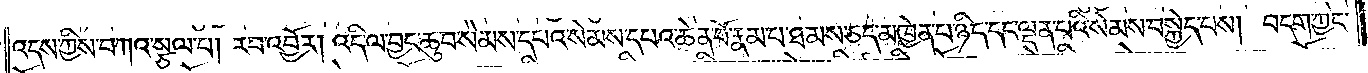འདས་ཀྱིས་བཀའ་སྩལ་པ། རབ་འབྱོར། འདི་ལ་བྱང་ཆུབ་སེམས་དཔའ་སེམས་དཔའ་ཆེན་པོ་རྣམ་པ་ཐམས་ཅད་མཁྱེན་པ་ཉིད་དང་ལྡན་པའི་སེམས་བསྐྱེད་པས། བདག་ཀྱང་
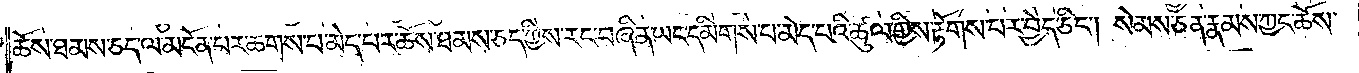ཆོས་ཐམས་ཅད་ལ་མངོན་པར་ཆགས་པ་མེད་པར་ཆོས་ཐམས་ཅད་ཀྱི་རང་བཞིན་ཡང་དམིགས་པ་མེད་པའི་ཚུལ་གྱིས་རྟོགས་པར་བྱེད་ཅིང༌། སེམས་ཅན་རྣམས་ཀྱང་ཆོས་
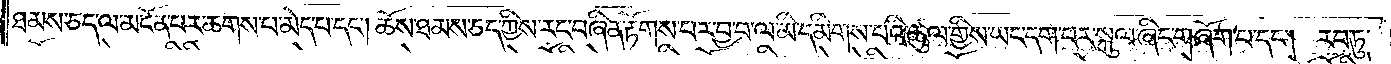ཐམས་ཅད་ལ་མངོན་པར་ཆགས་པ་མེད་པ་དང༌། ཆོས་ཐམས་ཅད་ཀྱིས་རང་བཞིན་རྟོགས་པར་བྱ་བ་ལ་མི་དམིགས་པའི་ཚུལ་གྱིས་ཡང་དག་པར་སྐུལ་ཞིང་གཞོག་པ་དང༌། རབ་ཏུ་
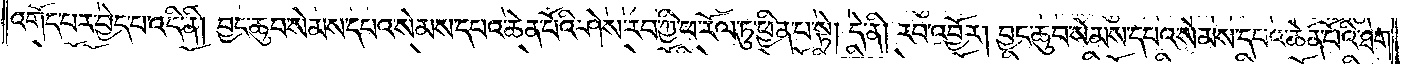འགོད་པར་བྱེད་པ་འདི་ནི། བྱང་ཆུབ་སེམས་དཔའ་སེམས་དཔའ་ཆེན་པོའི་ཤེས་རབ་ཀྱི་ཕ་རོལ་ཏུ་ཕྱིན་པ་སྟེ། དེ་ནི། རབ་འབྱོར། བྱང་ཆུབ་སེམས་དཔའ་སེམས་དཔའ་ཆེན་པོའི་ཐེག་
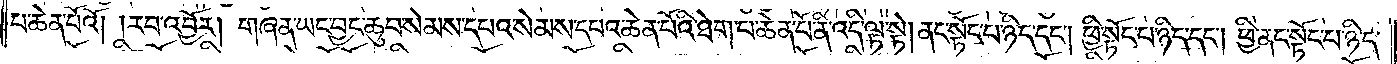པ་ཆེན་པོའོ། །རབ་འབྱོར། གཞན་ཡང་བྱང་ཆུབ་སེམས་དཔའ་སེམས་དཔའ་ཆེན་པོའི་ཐེག་པ་ཆེན་པོ་ནི་འདི་ལྟ་སྟེ། ནང་སྟོང་པ་ཉིད་དང༌། ཕྱི་སྟོང་པ་ཉིད་དང༌། ཕྱི་ནང་སྟོང་པ་ཉིད་
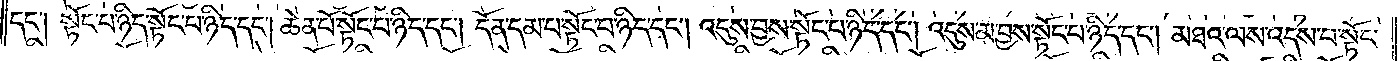དང༌། སྟོང་པ་ཉིད་སྟོང་པ་ཉིད་དང༌། ཆེན་པོ་སྟོང་པ་ཉིད་དང༌། དོན་དམ་པ་སྟོང་པ་ཉིད་དང༌། འདུས་བྱས་སྟོང་པ་ཉིད་དང༌། འདུས་མ་བྱས་སྟོང་པ་ཉིད་དང༌། མཐའ་ལས་འདས་པ་སྟོང་
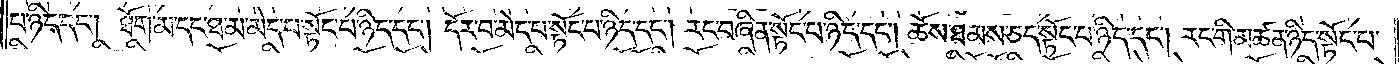པ་ཉིད་དང༌། ཐོག་མ་དང་ཐ་མ་མེད་པ་སྟོང་པ་ཉིད་དང༌། དོར་བ་མེད་པ་སྟོང་པ་ཉིད་དང༌། རང་བཞིན་སྟོང་པ་ཉིད་དང༌། ཆོས་ཐམས་ཅད་སྟོང་པ་ཉིད་དང༌། རང་གི་མཚན་ཉིད་སྟོང་པ་
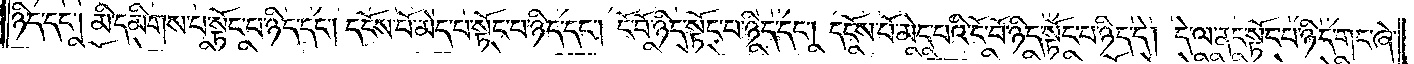ཉིད་དང༌། མི་དམིགས་པ་སྟོང་པ་ཉིད་དང༌། དངོས་པོ་མེད་པ་སྟོང་པ་ཉིད་དང༌། ངོ་བོ་ཉིད་སྟོང་པ་ཉིད་དང༌། དངོས་པོ་མེད་པའི་ངོ་བོ་ཉིད་སྟོང་པ་ཉིད་དེ། དེ་ལ་ནང་སྟོང་པ་ཉིད་གང་ཞེ་
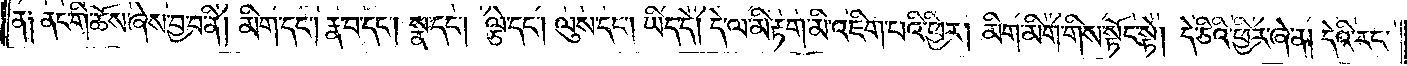ན། ནང་གི་ཆོས་ཞེས་བྱ་བ་ནི། མིག་དང༌། རྣ་བ་དང༌། སྣ་དང༌། ལྕེ་དང༌། ལུས་དང༌། ཡིད་དེ། དེ་ལ་མི་རྟག་མི་འཇིག་པའི་ཕྱིར། མིག་མིག་གིས་སྟོང་སྟེ། དེ་ཅིའི་ཕྱིར་ཞེ་ན། དེའི་རང་
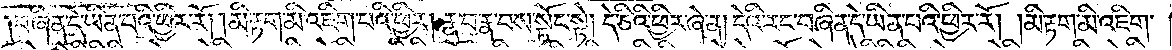བཞིན་དེ་ཡིན་པའི་ཕྱིར་རོ། །མི་རྟག་མི་འཇིག་པའི་ཕྱིར། རྣ་བ་རྣ་བས་སྟོང་སྟེ། དེ་ཅིའི་ཕྱིར་ཞེ་ན། དེའི་རང་བཞིན་དེ་ཡིན་པའི་ཕྱིར་རོ། །མི་རྟག་མི་འཇིག་
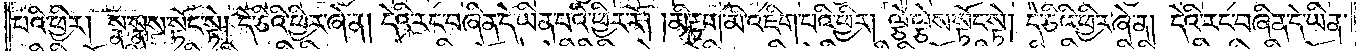པའི་ཕྱིར། སྣ་སྣས་སྟོང་སྟེ། དེ་ཅིའི་ཕྱིར་ཞེ་ན། དེའི་རང་བཞིན་དེ་ཡིན་པའི་ཕྱིར་རོ། །མི་རྟག་མི་འཇིག་པའི་ཕྱིར། ལྕེ་ལྕེས་སྟོང་སྟེ། དེ་ཅིའི་ཕྱིར་ཞེ་ན། དེའི་རང་བཞིན་དེ་ཡིན་
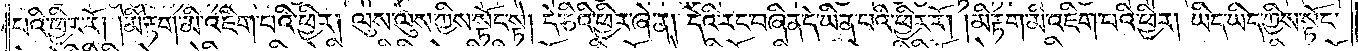པའི་ཕྱིར་རོ། །མི་རྟག་མི་འཇིག་པའི་ཕྱིར། ལུས་ལུས་ཀྱིས་སྟོང་སྟེ། དེ་ཅིའི་ཕྱིར་ཞེ་ན། དེའི་རང་བཞིན་དེ་ཡིན་པའི་ཕྱིར་རོ། །མི་རྟག་མི་འཇིག་པའི་ཕྱིར། ཡིད་ཡིད་ཀྱིས་སྟོང་
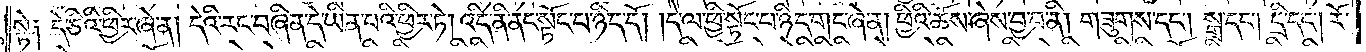སྟེ། དེ་ཅིའི་ཕྱིར་ཞེ་ན། དེའི་རང་བཞིན་དེ་ཡིན་པའི་ཕྱིར་ཏེ། འདི་ནི་ནང་སྟོང་པ་ཉིད་དོ། །དེ་ལ་ཕྱི་སྟོང་པ་ཉིད་གང་ཞེ་ན། ཕྱིའི་ཆོས་ཞེས་བྱ་བ་ནི། གཟུགས་དང༌། སྒྲ་དང༌། དྲི་དང༌། རོ་
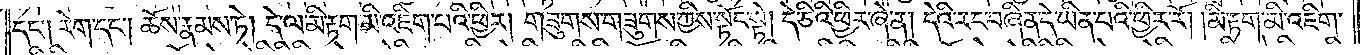དང༌། རེག་དང༌། ཆོས་རྣམས་ཏེ། དེ་ལ་མི་རྟག་མི་འཇིག་པའི་ཕྱིར། གཟུགས་གཟུགས་ཀྱིས་སྟོང་སྟེ། དེ་ཅིའི་ཕྱིར་ཞེ་ན། དེའི་རང་བཞིན་དེ་ཡིན་པའི་ཕྱིར་རོ། །མི་རྟག་མི་འཇིག་
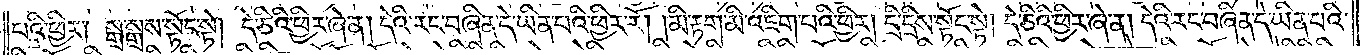པའི་ཕྱིར། སྒྲ་སྒྲས་སྟོང་སྟེ། དེ་ཅིའི་ཕྱིར་ཞེ་ན། དེའི་རང་བཞིན་དེ་ཡིན་པའི་ཕྱིར་རོ། །མི་རྟག་མི་འཇིག་པའི་ཕྱིར། དྲི་དྲིས་སྟོང་སྟེ། དེ་ཅིའི་ཕྱིར་ཞེ་ན། དེའི་རང་བཞིན་དེ་ཡིན་པའི་
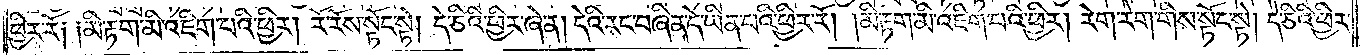ཕྱིར་རོ། །མི་རྟག་མི་འཇིག་པའི་ཕྱིར། རོ་རོས་སྟོང་སྟེ། དེ་ཅིའི་ཕྱིར་ཞེ་ན། དེའི་རང་བཞིན་དེ་ཡིན་པའི་ཕྱིར་རོ། །མི་རྟག་མི་འཇིག་པའི་ཕྱིར། རེག་རེག་གིས་སྟོང་སྟེ། དེ་ཅིའི་ཕྱིར་
